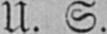U. S.
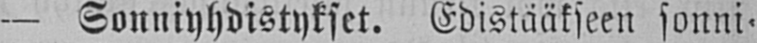— Sonniyhdistykset. Edistääkseen sonni-
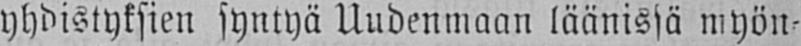yhdistyksien syntyä Uudenmaan läänissä myön-
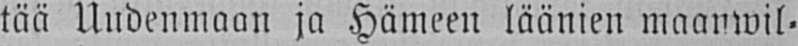tää Uudenmaan ja Hämeen läänien maanwil-
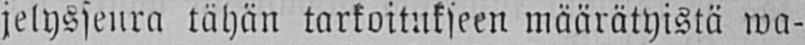jelysseura tähän tarkoitukseen määrätyistä wa-
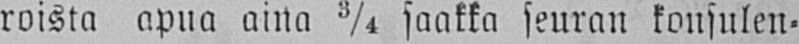roista apua aina ¾ saakka seuran konsulen-
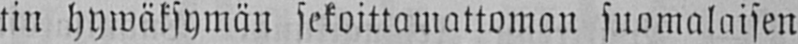tin hywäksymän sekoittamattoman suomalaisen
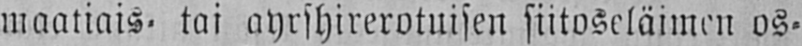maatiais- tai ayrshirerotuisen siitoseläimen os-
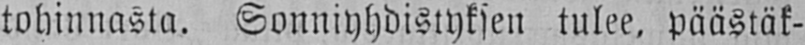tohinnasta. Sonniyhdistyksen tulee, päästäk-
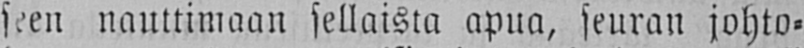seen nauttimaan sellaista apua, seuran johto-
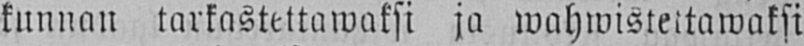kunnan tarkastettawaksi ja wahwisteitawaksi
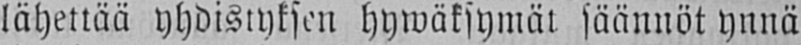lähettää yhdiskyksen hywäksymät säännöt ynnä
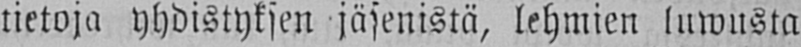tietoja yhdistyksen jäsenistä, lehmien luwusta
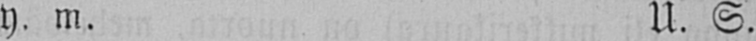y. m. U. S.
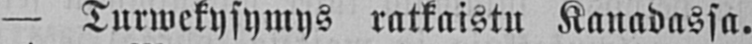— Turwekysymys ratkaistu Kanadassa.
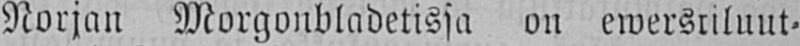Norjan Morgonbladetissa on ewersriluut-
